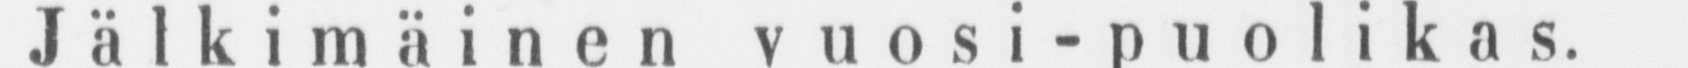Jälkimäinen vuosi-puolikas.
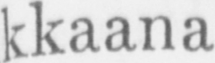ikkaana
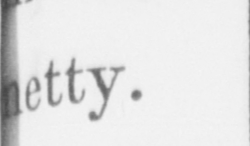netty.
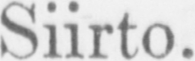Siirto.
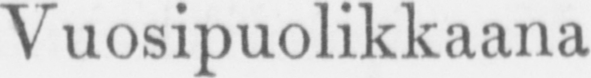Vuosipuolikkaana
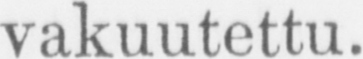vakuutettu.
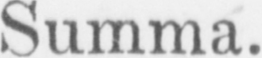Summa.
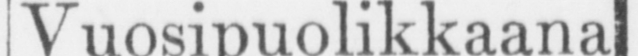Vuosipuolikkaana
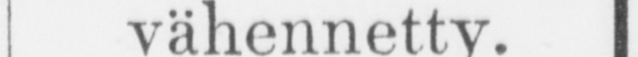vähennetty.
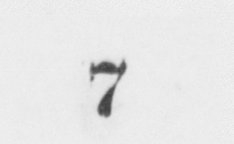7
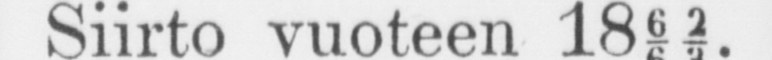Siirto vuoteen 18 6/6 2/3.
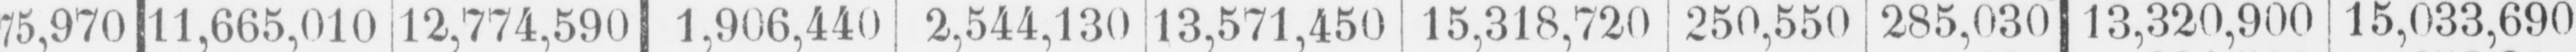175,970 11,665,010 12,774,590 1,906,440 2,544,130 13,571,450 15,318,720 250,550 285,030 13,320,900 15,033,690
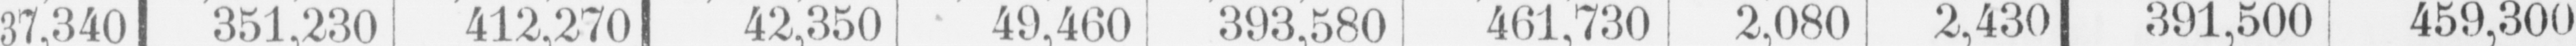37,340 351,230 412,270 42,350 49,460 393,580 461,730 2,080 2,430 391,500 459,300
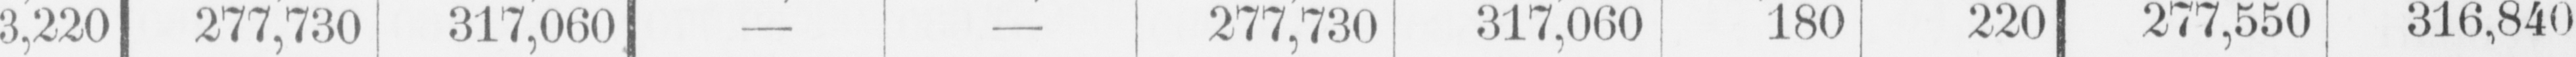3,220 277,730 317,060 — — 277,730 317,060 180 220 277,550 316,840
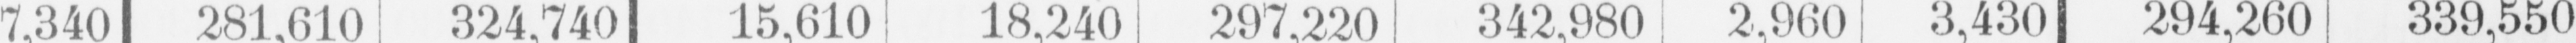7,340 281,610 324,740 15,610 18,240 297,220 342,980 2,960 3,430 294,260 339,550
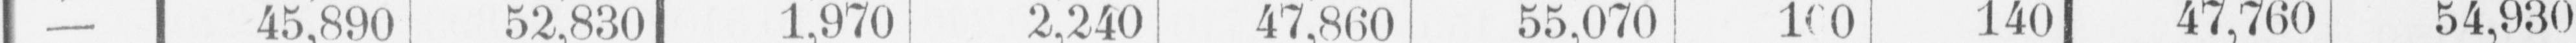— 45,890 52,830 1,970 2,240 47,860 55,070 100 140 47,760 54,930
